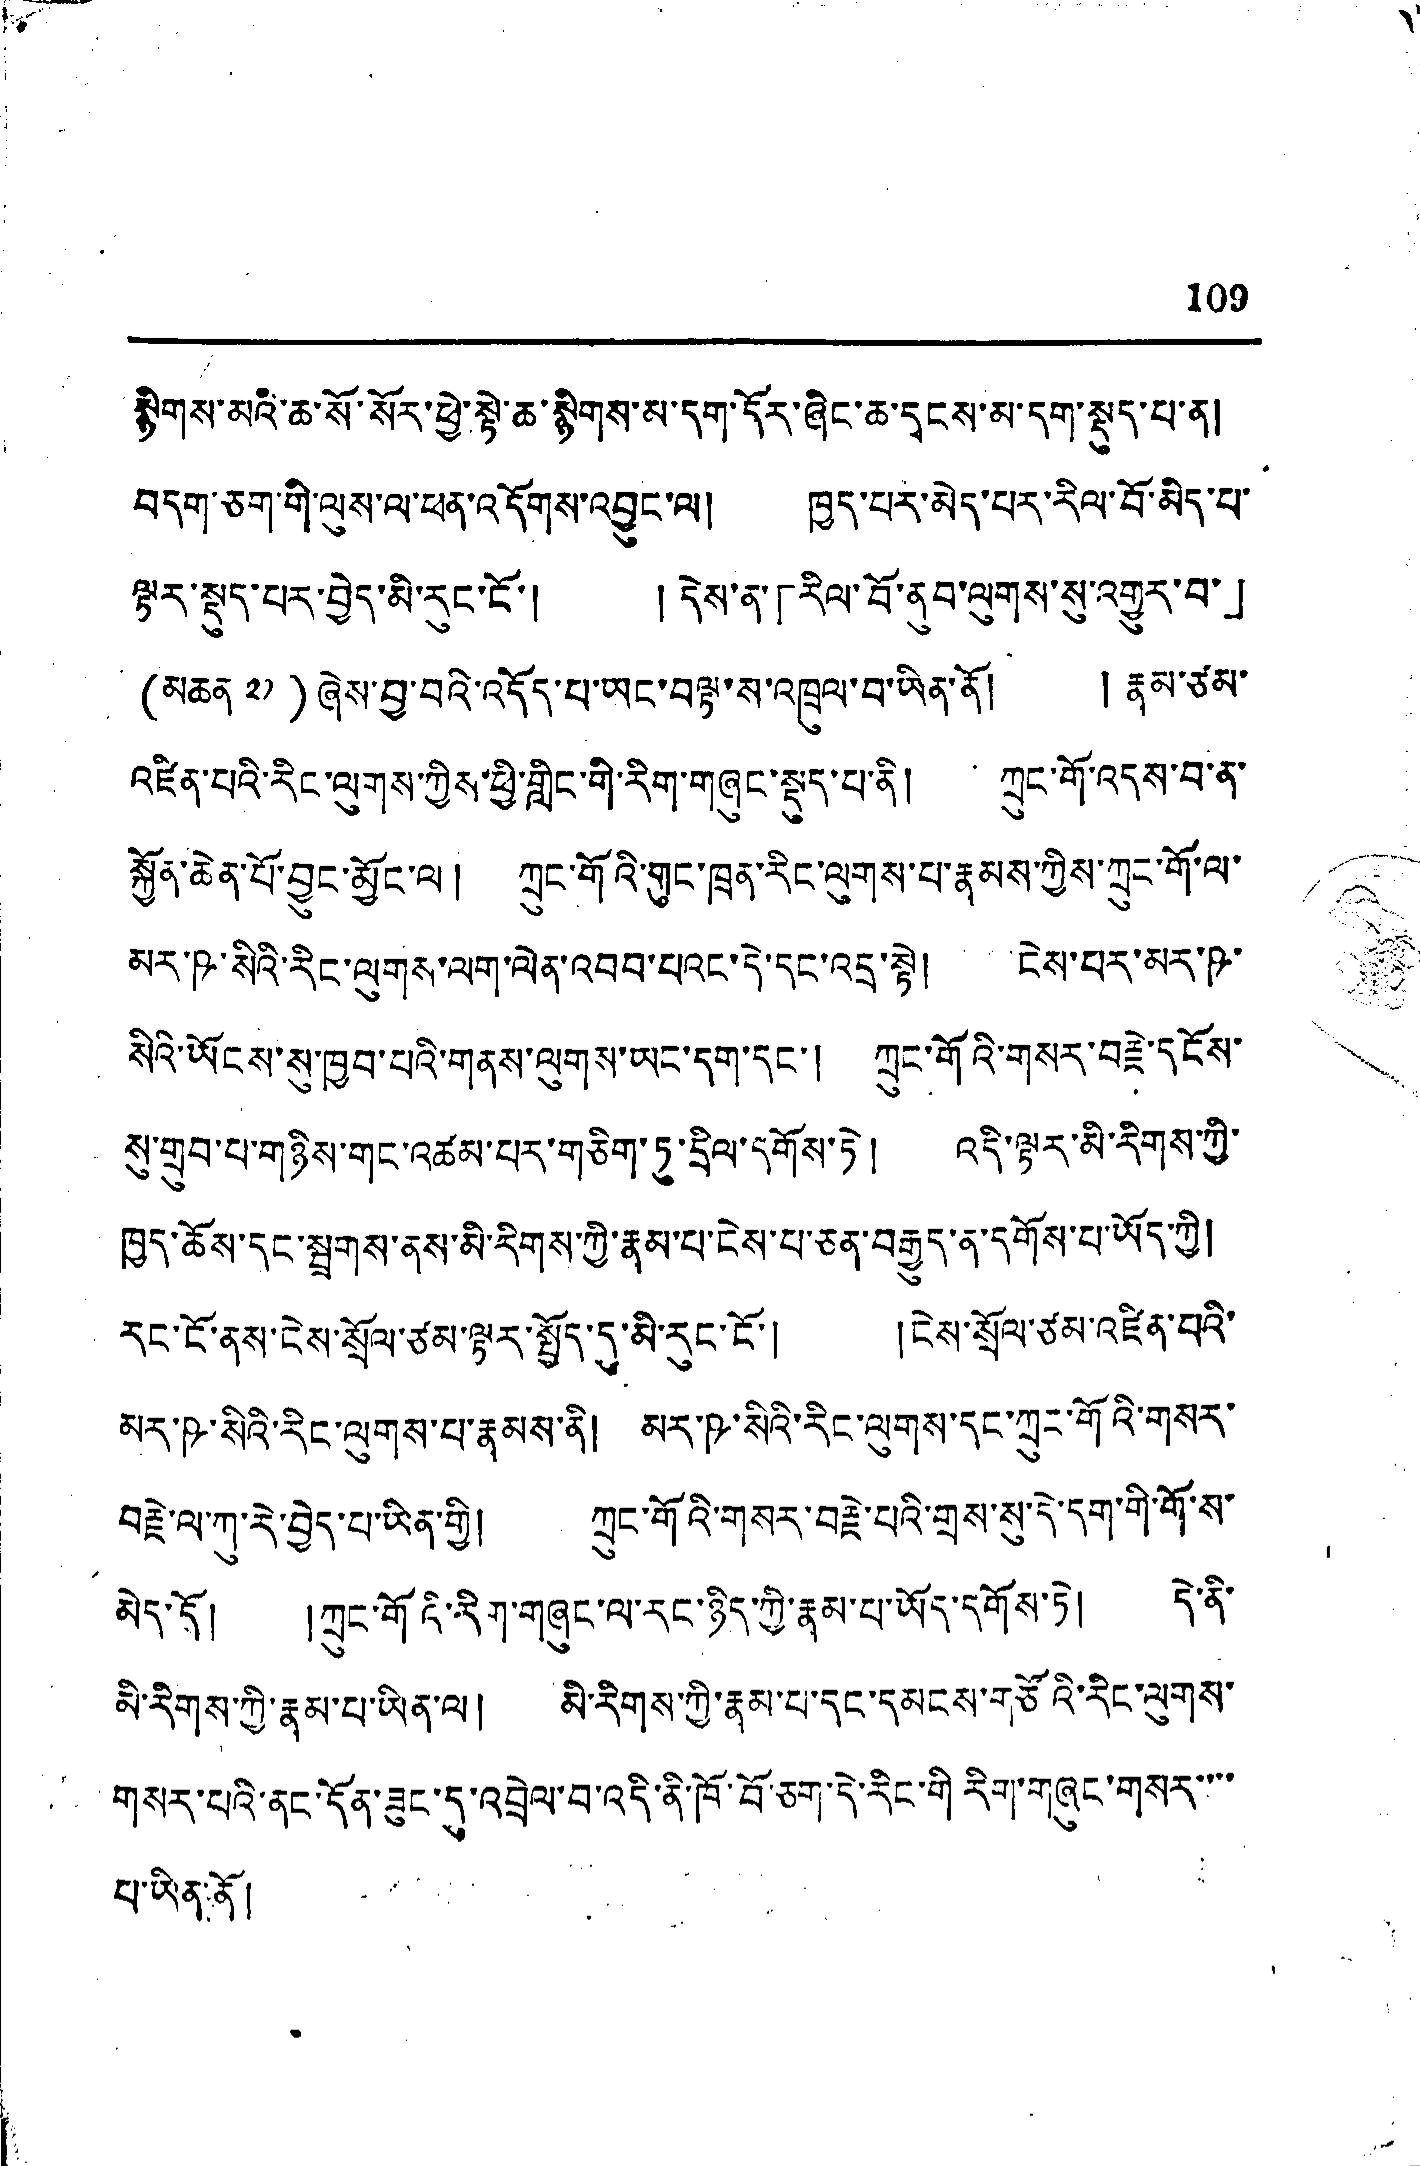109
སྙིགས་མའི་ཆ་སོ་སོར་ཕྱེ་སྟེ་ཆ་སྙིགས་མ་དག་དོར་ཞིང་ཆ་དྭངས་མ་དག་སྡུད་པ་ན།
བདག་ཅག་གི་ལུས་ལ་ཕན་འདོགས་འབྱུང་ལ། ཁྱད་པར་མེད་པར་རིལ་བོ་མིད་པ་
ལྟར་སྡུད་པར་བྱེད་མི་རུང་ངོ་། །དེས་ན་「རིལ་བོ་ནུབ་ལུགས་སུ་འགྱུར་བ་」
(མཆན ༢༡)ཞེས་བྱ་བའི་འདོད་པ་ཡང་བལྟ་ས་འཁྲུལ་བ་ཡིན་ནོ། །རྣམ་ཙམ་
འཛིན་པའི་རིང་ལུགས་ཀྱིས་ཕྱི་གླིང་གི་རིག་གཞུང་སྡུད་པ་ནི། ཀྲུང་གོ་འདས་བ་ན་
སྐྱོན་ཆེན་པོ་བྱུང་མྱོང་ལ། ཀྲུང་གོའི་གུང་ཁྲན་རིང་ལུགས་པ་རྣམས་ཀྱིས་ཀྲུང་གོ་ལ་
མར་ཥ་སིའི་རིང་ལུགས་ལག་ལེན་འབབ་པའང་དེ་དང་འདྲ་སྟེ། ངེས་པར་མར་ཥ
སིའི་ཡོངས་སུ་ཁྱབ་པའི་གནས་ལུགས་ཡང་དག་དང་། ཀྲུང་གོའི་གསར་བརྗེ་དངོས་
སུ་གྲུབ་པ་གཉིས་གང་འཚམ་པར་གཅིག་ཏུ་དྲིལ་དགོས་ཏེ། འདི་ལྟར་མི་རིགས་ཀྱི་
ཁྱད་ཆོས་དང་སྦྲགས་ནས་མི་རིགས་ཀྱི་རྣམ་པ་ངེས་པ་ཅན་བརྒྱུད་ན་དགོས་པ་ཡོད་ཀྱི།
རང་ངོ་ནས་ངེས་སྲོལ་ཙམ་ལྟར་སྤྱོད་དུ་མི་རུང་ངོ་། །ངེས་སྲོལ་ཙམ་འཛིན་བའི་
མར་ཥ་སིའི་རིང་ལུགས་པ་རྣམས་ནི། མར་ཥ་སིའི་རིང་ལུགས་དང་ཀྲུང་གོའི་གསར་
བརྗེ་ལ་ཀུ་རེ་བྱེད་པ་ཡིན་གྱི། ཀྲུང་གོའི་གསར་བརྗེ་པའི་གྲས་སུ་དེ་དག་གི་གོ་ས་
མེད་དོ། །ཀྲུང་གོའི་རིག་གཞུང་ལ་རང་ཉིད་ཀྱི་རྣམ་པ་ཡོད་དགོས་ཏེ། དེ་ནི་
མི་རིགས་ཀྱི་རྣམ་པ་ཡིན་ལ། མི་རིགས་ཀྱི་རྣམ་པ་དང་དམངས་གཙོའི་རིང་ལུགས་
གསར་པའི་ནང་དོན་ཟུང་དུ་འབྲེལ་བ་འདི་ནི་ཁོ་བོ་ཅག་དེ་རིང་གི རིག་གཞུང་གསར་་་་
པ་ཡིན་ནོ།
